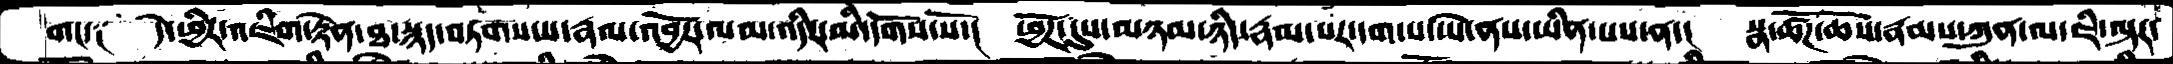གང་༑  དེ་ཕྱིར་འཇིག་རྟེན་ཐ་སྙད་བཏགས་པ་རྣལ་འབྱོར་ལམ་འདིར་མི་དགོས་སོ་།  ཕྱོཌ་དུས་མཉམ་ཉིད་རྣམ་པར་དག་པ་ཡེ་ནས་ཡིན་པས་ན་།  སྣ་ཚོཌ་ཆོས་རྣམས་ཀུན་ལ་ཇི་ལྟར་
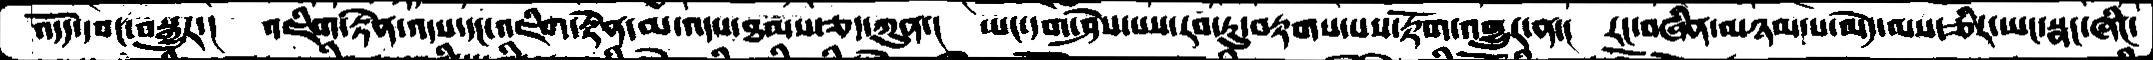འདོད་དབང་བསྒྱུར་།  འཇིག་རྟེན་འདས་དང་འཇིག་རྟེན་མ་འདས་ཐམས་ཅད་ཀུན་།  ཡང་དག་ཤེས་པས་རབ་ཏུ་བརྟགས་པས་རྟོག་འགྱུར་ན་། རང་བཞིན་མཉམ་པ་མེད་ལས་ཅིར་ཡང་སྣང་ཞིང་
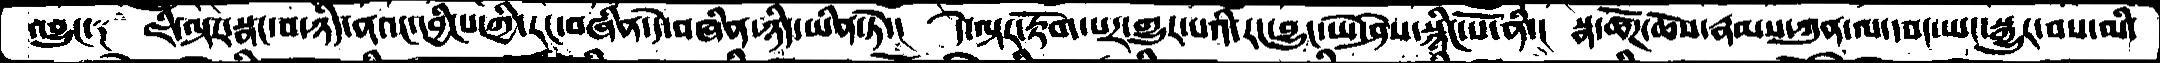འབྱུང་༑  ཇི་ལྟར་སྣང་བ་ཉིད་ནའང་དབྱིངས་ཀྱི་རང་བཞིན་དེ་བཞིན་ཉིད་ཡིན་ཏེ་།  དེ་ལྟར་རྟོག་པར་གྱུར་པའི་རང་བྱུང་ཡེ་ཤེས་སྙིང་པོ་ནི་།  སྙ་ཚོཌ་ཆོས་རྣམས་ཀུན་ལ་དབང་ཡང་སྒྱུར་བས་མི་
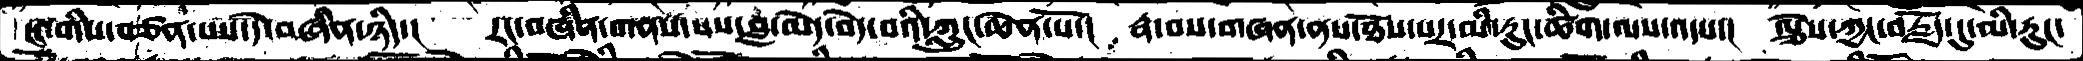ངང་གིས་བཙན་པས་དེ་བཞིན་ཉིད་།  རང་བཞིན་གནས་པས་བླ་མེད་བདེ་བའི་ཀླུང་ཆེན་པོ་།  རྣ་བས་གཞན་ནས་ཐོས་པར་མི་རུང་ཚིག་ལས་འདས་།  ལྕེས་ཀྱང་བརྗོད་དུ་མི་རུང་
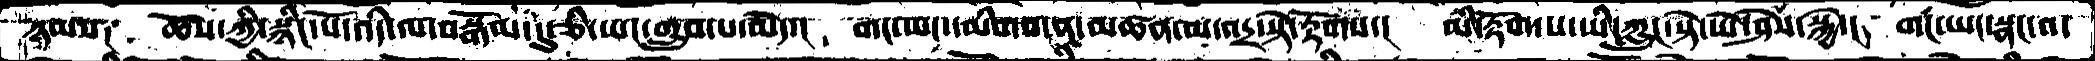ཉམས༑  ཆོས་ཀྱི་སྙིང་པོ་འདི་ལ་བསྒོམ་དུ་ཅི་ཡང་གྲུབ་པ་མེད་།  གང་ཡང་དམིགས་ན་མཚན་མ་འདྲ་སྟེ་རྟོགས་།  མི་རྟོག་པ་ཡི་ཀླུང་སྟེ་ཡེ་ཤེས་སྐྱེ་། གང་ཡང་སྣང་བ་
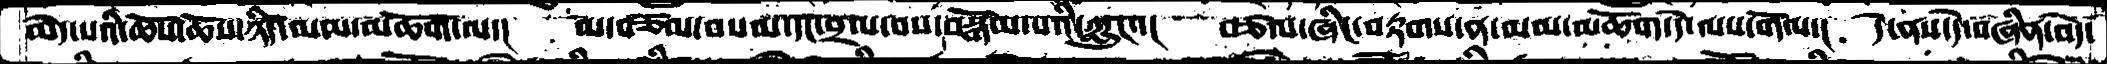མེད་པའི་ཆོས་ཆོས་ཉིད་ལམ་མཆོག་ལ་།  མ་བཅོས་བསམ་དང་བྲལ་བས་བསྒོམ་པའི་ཀླུང་་།  བཙལ་ཞིང་བརྟགས་ན་ལམ་མཆོག་དེ་ལས་གོལ་།  དེ་ན་དེ་བཞིན་བདེ་
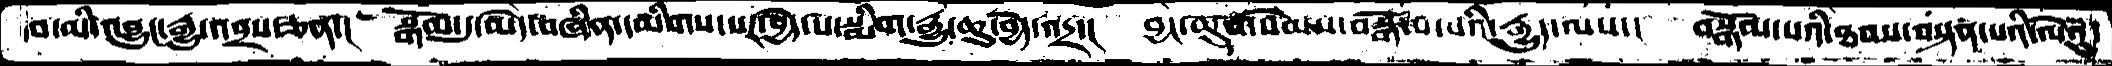བ་མི་འབྱུང་རྒྱུ་འབྲས་ཅན་།  སྒོམ་དུ་མེད་བཞིན་དམིགས་པར་བྱེད་པ་སྨིག་རྒྱུ་ཆུ་བྱེད་འདྲ་།  བྱང་ཆུབ་སེམས་བསྒོམ་པའི་རྒྱུད་ལས་།  བསྒོམ་པའི་ཐབས་བསྟན་པའི་ལེའུ་
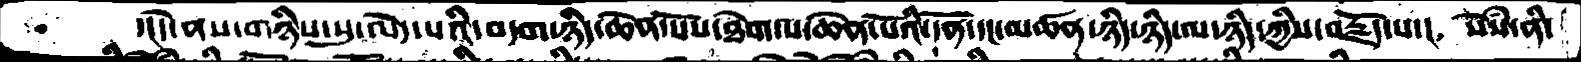་།དེ་ནས་གཉིས་སུ་མེད་པའི་བདག་ཉིད་ཆེན་པོས་ཐེག་པ་ཆེན་པོའི་དོན་དང་མཚན་ཉིད་ཉིད་ལ་ཉིད་ཀྱིས་བརྗོད་པ་།  སེསཾ་ནི་
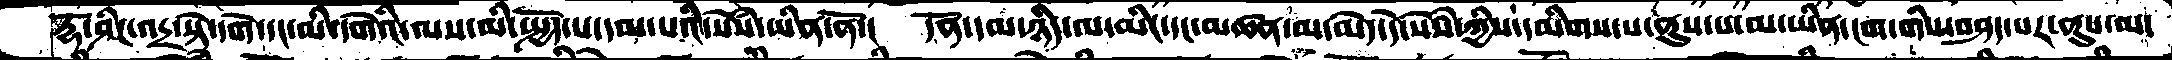རྡོ་ཤིང་འདྲ་སྟེ་དགེ་དང་མི་དགེའི་ལས་མི་སྤྱོད་པ་དམ་པའི་སེཾས་ཡིན་ནོ་།  དོན་དམ་ཉིད་ལ་མིང་དང་མཚན་མ་མེད་དེ་སེཾས་ཀྱིས་དམིགས་པ་ནུས་པ་མ་་ཡིན་ངག་གིས་བཤད་པར་ནུས་མ་
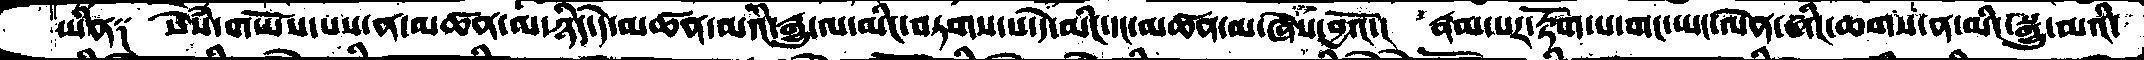ཡིན༑   སེསཾ་གཡོས་པས་ན་མཚན་མ་ཉིད་དེ་མཚན་མའི་རྒྱུ་ལ་མིང་བཏགས་པ་དེ་མིང་དང་མཚན་མ་ཞེས་བྱའོ་།  རྣམ་པར་རྟོག་པ་གང་ཡང་ལེན་ཞིང་ཆགས་ན་མིང་སྒྱུ་མའི་
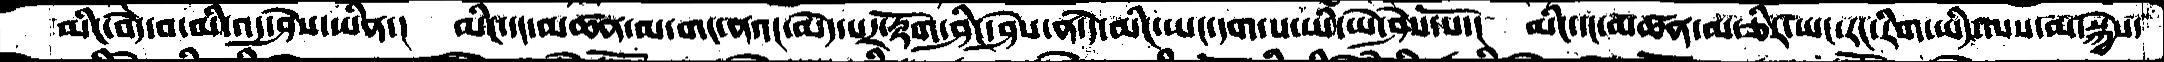མིང་བདེ་བ་མི་འདུ་ཤེས་ཡིན་།  མིང་དང་མཚན་མ་གང་ནའང་མེད་པར་རྟོག་ཤིང་ཤེས་ན་དེ་མིང་ཡང་དག་པ་ཡི་ཡེ་ཤེས་སོ་།  མིང་དང་མཚན་མ་ཅིར་ཡང་རང་རིག་ཡིད་ལས་མ་སྐྱེས་
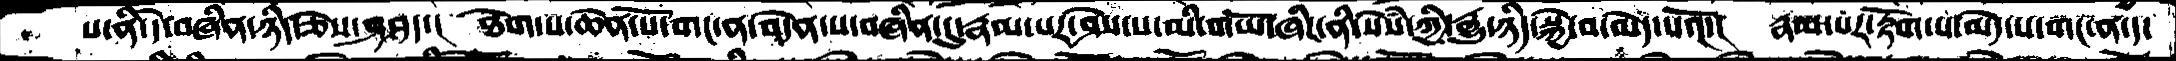པ་ནི་དེ་བཞིན་ཉིད་ཅེས་བཤད་།  ཐེག་པ་ཆེན་པོ་གང་ན་བདེན་པ་བཞིན་དུ་རྣམ་པར་ཤེས་པ་མི་གཡོ་ཞིང་ནི་སེཾས་ཀྱི་རྒྱུ་ཉིད་སྐྱེ་བ་མེད་པའོ་།  རྣམ་པར་རྟོག་པ་མེད་པ་གང་ན་ད་
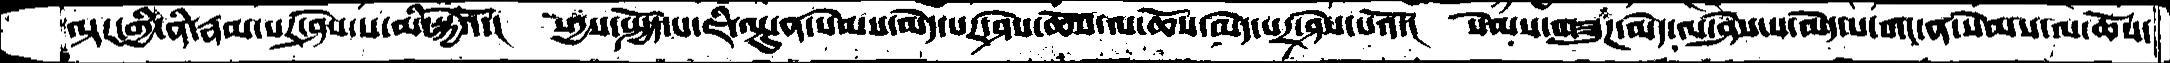ལྟར་གྱི་ནི་རྣམ་པར་ཤེས་པ་མི་སྐྱེའོ་།  སདྱས་སྤྱོད་པ་ཇི་ལྟུ་ན་སེམས་མེད་པར་ཤེས་ཆོས་ལ་ཆོས་མེད་པར་ཤེས་པའོ་།  སེམས་གཟུཌ་མེད་ལ་ཤེས་པ་མེད་པ་གང་ན་སེམས་ལ་ཆོས་
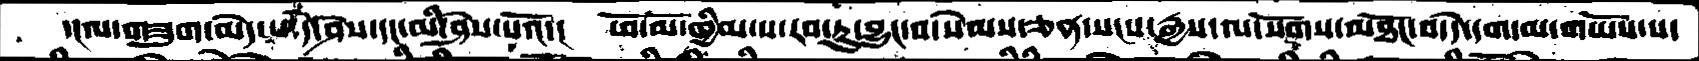་།ལ་གཟུགས་མེད་པ་དེ་ཤེས་དང་མི་ཤེས་པའོ་།  ཕོ་མོ་ཁྱིམ་པ་རབ་ཏུ་བྱུང་བ་སེམས་ཅན་སངས་རྒྱས་ལ་སོགས་མཐོང་བ་དེ་དག་མ་གཡོས་པ་
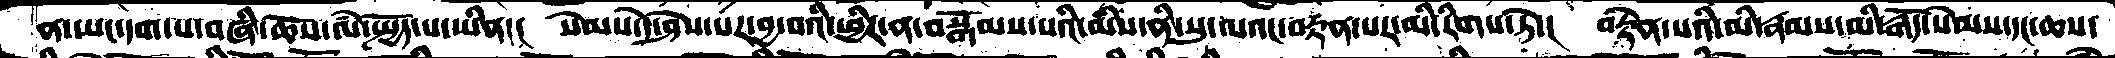ན་ཡང་དག་པ་བཞི་ཆོས་ལཾ་སྤྱོད་པ་ཡིན་།  སེམས་དེ་ཤེས་པར་བྱ་བའི་ཕྱིར་ན་བསྒོམས་པའི་མིས་ནི་སུ་ལའང་བརྟན་པར་མི་རིགས་ཏེ་།  བརྟེན་པའི་མི་རྣམས་མི་རྒོད་སེམས་དང་ཆས་
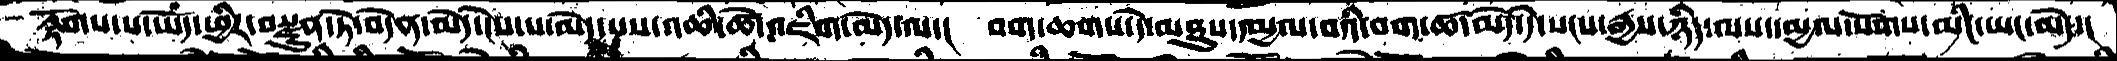རྟོགས་པ་ཡོད་ཕྱིར་བསྫུན་ཏེ་བདེན་མེད་ངེས་པ་མེད་པས་འཆི་ཚེ་འཇིག་མེད་ལ་།  བག་ཆགས་དེ་མཐུས་དམྱལ་བའི་བག་ཚ་མེད་དེ་སངས་རྒྱས་ཉིད་ལས་དམྱལ་སོགས་མིང་ཡང་མེད་།
